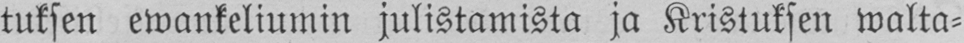tuksen ewankeliumin julistamista ja Kristuksen walta-
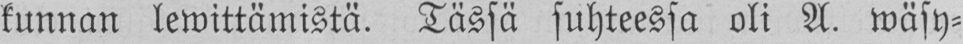kunnan lewittämistä. Tässä suhteessa oli A. wäsy-
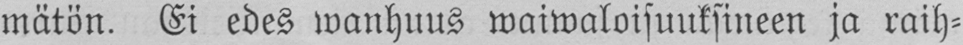mätön. Ei edes wanhuus waiwaloisuuksineen ja raih-
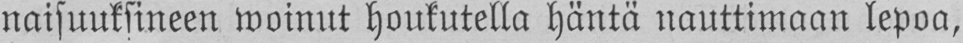naisuuksilleen woinut houkutella häntä nauttimaan lepoa,
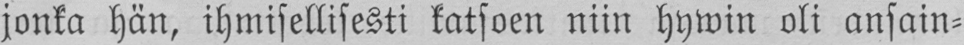jonka hän, ihmeellisesti katsoen niin hywin oli ansain-
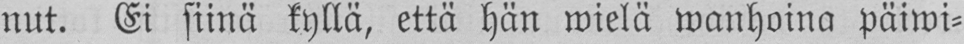nut. Ei siinä kyllä, että hän wielä wanhoina päiwi-
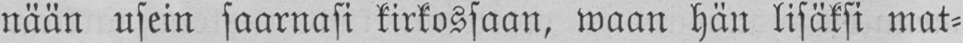nään usein saarnasi kirkossaan, waan hän lisäksi mat-
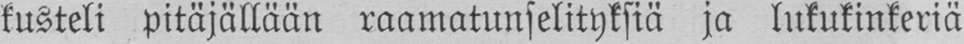kusteli pitäjällään raamatunselityksiä ja lukukinkeriä
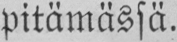pitämässä.
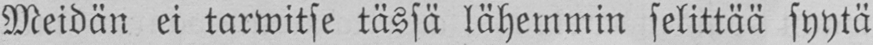Meidän ei tarwitse tässä lähemmin selittää syytä
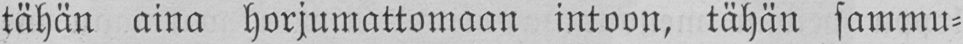tähän aina horjumattomaan intoon, tähän sammu-
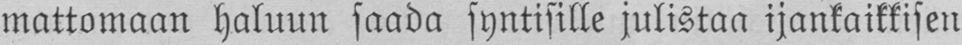mattomaan haluun saada syntisille julistaa ijankaikkisen
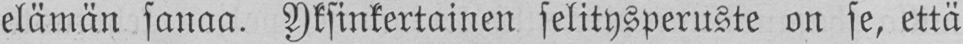elämän sanaa. Yksinkertainen selitysperuste on se, että
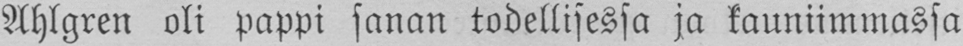Ahlgren oli pappi sanan todellisessa ja kauniimmassa
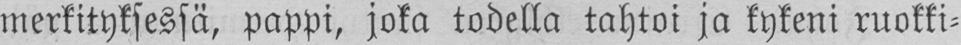merkityksessä, pappi, joka todella tahtoi ja kykeni ruokki-
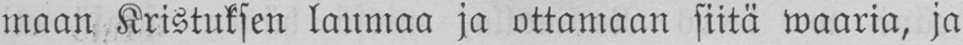maan Kristuksen laumaa ja ottamaan siitä waaria, ja
